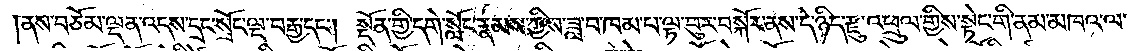ནས་བཅོམ་ལྡན་འདས་དྲང་སྲོང་ལྔ་བརྒྱ་དང༌། སྔོན་གྱི་དགེ་སློང་རྣམས་ཀྱིས་ཟླ་བ་ཁམ་པ་ལྟ་བུར་བསྐོར་ནས་དེ་ཉིད་རྫུ་འཕྲུལ་གྱིས་སྟེང་གི་ནམ་མཁའ་ལ་
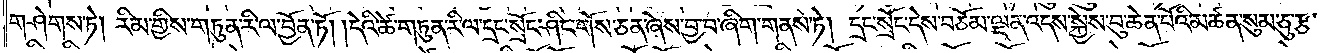གཤེགས་ཏེ། རིམ་གྱིས་གཏུན་རི་ལ་བྱོན་ཏོ། །དེའི་ཚེ་གཏུན་རི་ལ་དྲང་སྲོང་ཤིང་གོས་ཅན་ཞེས་བྱ་བ་ཞིག་གནས་ཏེ། དྲང་སྲོང་དེས་བཅོམ་ལྡན་འདས་སྐྱེས་བུ་ཆེན་པོའི་མཚན་སུམ་ཅུ་རྩ་
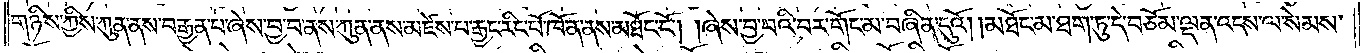གཉིས་ཀྱིས་ཀུན་ནས་བརྒྱན་པ་ཞེས་བྱ་བ་ནས་ཀུན་ནས་མཛེས་པ་རྒྱང་རིང་པོ་ཁོ་ན་ནས་མཐོང་ངོ༌། །ཞེས་བྱ་བའི་བར་གོང་མ་བཞིན་དུའོ། །མཐོང་མ་ཐག་ཏུ་དེ་བཅོམ་ལྡན་འདས་ལ་སེམས་
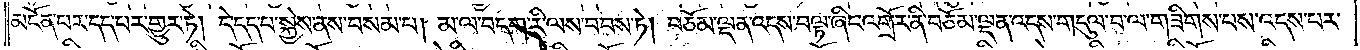མངོན་པར་དད་པར་གྱུར་ཏེ། དེ་དད་པ་སྐྱེས་ནས་བསམ་པ། མ་ལ་བདག་རི་ལས་བབས་ཏེ། བཅོམ་ལྡན་འདས་བལྟ་ཞིང་འགྲོར་ནི་བཅོམ་ལྡན་འདས་གདུལ་བ་ལ་གཟིགས་པས་འདས་པར་
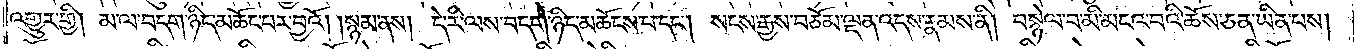འགྱུར་གྱི། མ་ལ་བདག་ཉིད་མཆོང་བར་བྱའོ། །སྙམ་ནས། དེ་རི་ལས་བདག་ཉིད་མཆོངས་པ་དང༌། སངས་རྒྱས་བཅོམ་ལྡན་འདས་རྣམས་ནི། བསྙེལ་བ་མི་མངའ་བའི་ཆོས་ཅན་ཡིན་པས།
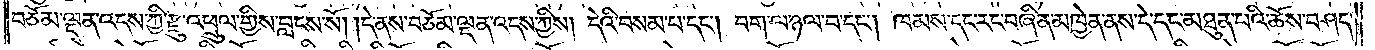བཅོམ་ལྡན་འདས་ཀྱི་རྫུ་འཕྲུལ་གྱིས་བླངས་སོ། །དེ་ནས་བཅོམ་ལྡན་འདས་ཀྱིས། དེའི་བསམ་པ་དང༌། བག་ལ་ཉལ་བ་དང༌། ཁམས་དང་རང་བཞིན་མཁྱེན་ནས་དེ་དང་མཐུན་པའི་ཆོས་བཤད་
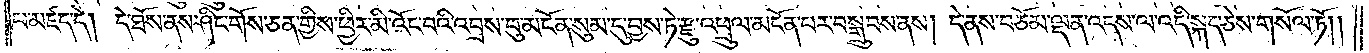པ་མཛད་དེ། དེ་ཐོས་ནས་ཤིང་གོས་ཅན་གྱིས་ཕྱིར་མི་འོང་བའི་འབྲས་བུ་མངོན་སུམ་དུ་བྱས་ཏེ་རྫུ་འཕྲུལ་མངོན་པར་བསྒྲུབས་ནས། དེ་ནས་བཅོམ་ལྡན་འདས་ལ་འདི་སྐད་ཅེས་གསོལ་ཏོ། །
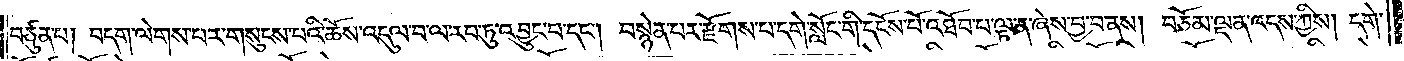བཙུན་པ། བདག་ལེགས་པར་གསུངས་པའི་ཆོས་འདུལ་བ་ལ་རབ་ཏུ་འབྱུང་བ་དང༌། བསྙེན་པར་རྫོགས་པ་དགེ་སློང་གི་དངོས་པོ་འཐོབ་པ་ལྟ་ན་ཞེས་བྱ་བ་ནས། བཅོམ་ལྡན་འདས་ཀྱིས། དགེ་
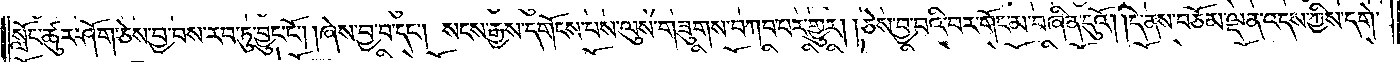སློང་ཚུར་ཤོག་ཅེས་བྱ་བས་རབ་ཏུ་བྱུང་ངོ༌། །ཞེས་བྱ་བ་དང༌། སངས་རྒྱས་དགོངས་པས་ལུས་གཟུགས་བཀབ་པར་གྱུར། །ཅེས་བྱ་བའི་བར་གོང་མ་བཞིན་དུའོ། །དེ་ནས་བཅོམ་ལྡན་འདས་ཀྱིས་དགེ་
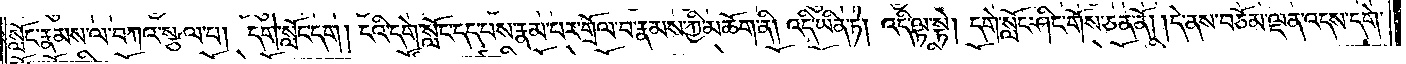སློང་རྣམས་ལ་བཀའ་སྩལ་པ། དགེ་སློང་དག། ངའི་དགེ་སློང་དད་པས་རྣམ་པར་གྲོལ་བ་རྣམས་ཀྱི་མཆོག་ནི། འདི་ཡིན་ཏེ། འདི་ལྟ་སྟེ། དགེ་སློང་ཤིང་གོས་ཅན་ནོ། །དེ་ནས་བཅོམ་ལྡན་འདས་དགེ་
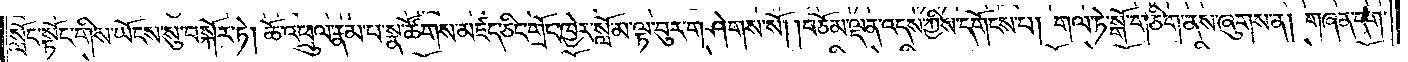སློང་སྟོང་གིས་ཡོངས་སུ་བསྐོར་ཏེ། ཆོ་འཕྲུལ་རྣམ་པ་སྣ་ཚོགས་མཛད་ཅིང་གྲོང་ཁྱེར་སློ་མ་ལྟ་བུར་གཤེགས་སོ། །བཅོམ་ལྡན་འདས་ཀྱིས་དགོངས་པ། གལ་ཏེ་སྒོ་གཅིག་ནས་ཞུགས་ན། གཞན་དག་
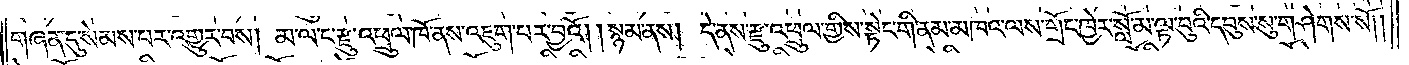གཞན་དུ་སེམས་པར་འགྱུར་བས། མ་ལ་ང་རྫུ་འཕྲུལ་ཁོ་ནས་འཇུག་པར་བྱའོ། །སྙམ་ནས། དེ་ནས་རྫུ་འཕྲུལ་གྱིས་སྟེང་གི་ནམ་མཁའ་ལས་གྲོང་ཁྱེར་སློ་མ་ལྟ་བུའི་དབུས་སུ་གཤེགས་སོ༎
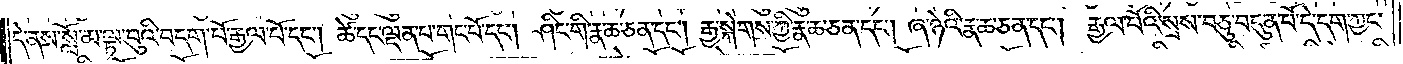དེ་ནས་སློ་མ་ལྟ་བུའི་བདག་པོ་རྒྱལ་པོ་དང༌། ཚེ་དང་ལྡན་པ་གང་པོ་དང༌། ཤིང་གི་རྣ་ཆ་ཅན་དང༌། རྒྱ་སྐེགས་ཀྱི་རྣ་ཆ་ཅན་དང༌། ཞ་ཉེའི་རྣ་ཆ་ཅན་དང༌། རྒྱལ་པོའི་སྲས་བཅུ་བདུན་པོ་དེ་དག་ཀྱང་
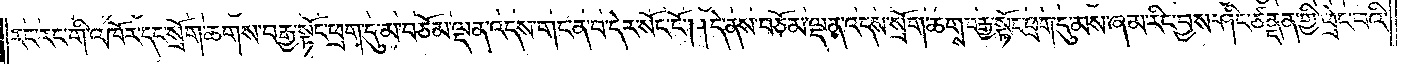རང་རང་གི་འཁོར་དང་སྲོག་ཆགས་བརྒྱ་སྟོང་ཕྲག་དུ་མ་བཅོམ་ལྡན་འདས་གང་ན་བ་དེར་སོང་ངོ༌། །དེ་ནས་བཅོམ་ལྡན་འདས་སྲོག་ཆགས་བརྒྱ་སྟོང་ཕྲག་དུ་མས་ཞམ་རིང་བྱས་ཤིང་ཙནྡན་གྱི་ཕྲེང་བའི་
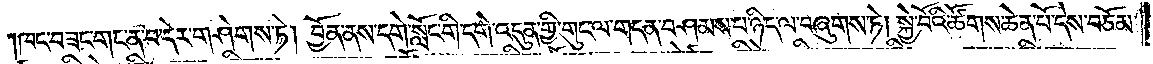ཁང་བཟང་གང་ན་བ་དེར་གཤེགས་ཏེ། བྱོན་ནས་དགེ་སློང་གི་དགེ་འདུན་གྱི་གུང་ལ་གདན་བཤམས་པ་ཉིད་ལ་བཞུགས་ཏེ། སྐྱེ་བོའི་ཚོགས་ཆེན་པོ་དེས་བཅོམ་
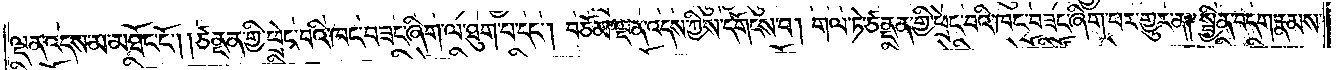ལྡན་འདས་མ་མཐོང་ངོ༌། །ཙནྡན་གྱི་ཕྲེང་བའི་ཁང་བཟང་ཞིག་ལ་ཐུག་པ་དང༌། བཅོམ་ལྡན་འདས་ཀྱིས་དགོངས་པ། གལ་ཏེ་ཙནྡན་གྱི་ཕྲེང་བའི་ཁང་བཟང་ཞིག་པར་གྱུར་ན། སྦྱིན་བདག་རྣམས་
